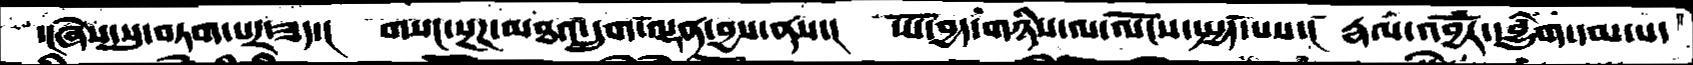་།ཞེས་སུ་བཏག་པར་ཟད་།  གསང་སྔཌ་མཐའ་དྲུག་ལྡན་བྱས་ནས་།  ཡོ་བྱད་གཉིས་ལ་ལོངས་སྤྱོད་་པས་།  རྣལ་འབྱོར་དབྱུཾག་དམ་པ་
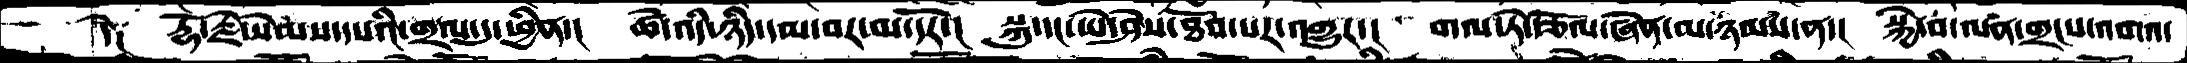དེ༑  རྡོ་རྗེ་སེམས་དཔའི་གྲལ་དུ་ཕྱིན་།  ཚེ་འདི་ཉིད་དམ་བར་མ་དོར་།  སྐུ་དང་ཡེ་ཤེས་ཐོབ་པར་འགྱུར་།  གལ་ཏེ་རྩོལ་ཞེན་མ་ཉམས་ན་།  སྐྱེ་བ་ལན་གྲངས་འགའ་
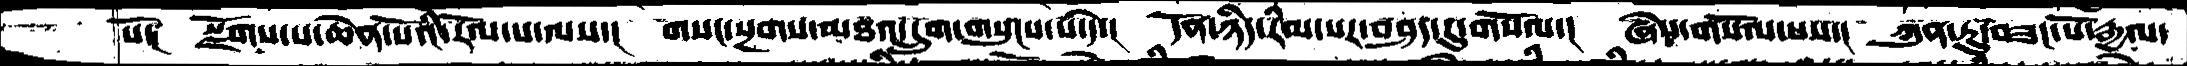སོ༑  སྫོགས་པ་ཆེན་པོའི་རོལ་པ་ལས་།  གསང་སྔགས་མཐའ་དྲུག་གསུངས་པ་དེ་།  དོན་ཉིད་རིམ་པར་བཤད་དུ་གསོལ་།  ཞེས་གསོལ་པས་།  ཀུ་ཏུ་བཟང་པོ་རྒྱལ་
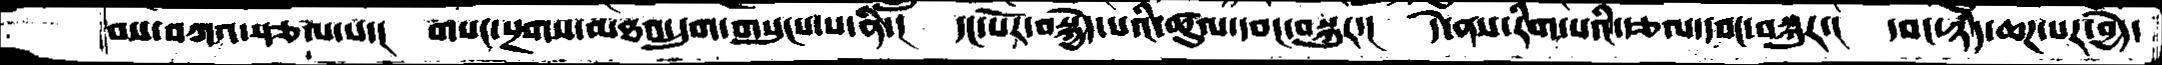བས་བཀའ་སྩལ་པ་།  གསང་སྔགས་མཐའ་དྲུག་གསུངས་པ་ནི་།  དང་པོར་བསྐྱེད་པའི་ཚུལ་དབང་བསྐུར་།  དེ་ནས་རིག་པའི་རྩལ་དབང་བསྐུར་།  དབང་ཉིད་ཆཌ་པར་བྱེད་
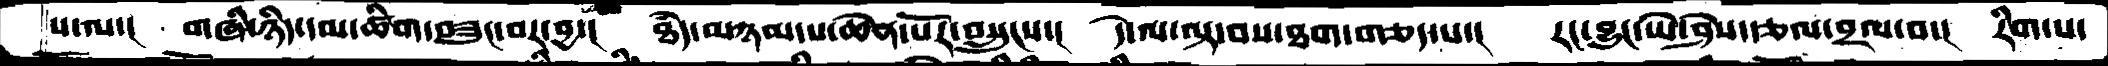པ་ལ་།  གཞི་ཉིད་དམ་ཚིག་བཟུང་བར་བྱ་།  ཐཾད་མཉམ་པ་ཆེན་པོར་བསྲུངས་།  དེ་ལ་ལྟ་བས་ཐག་གཅད་པ་།  རང་བྱུང་ཡེ་ཤེས་རྩལ་བྲལ་བ་།  རིག་པ་
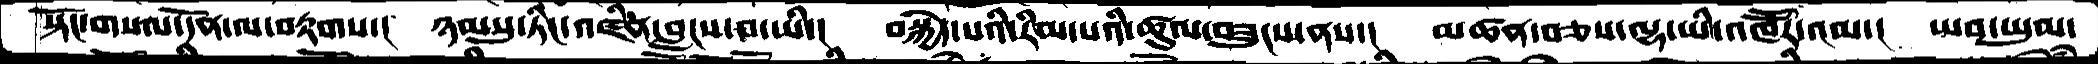སྟོང་གསལ་དོན་ལ་བརྟགས་།  ཉམསུ་ཏིང་འཛིན་བླངས་བ་ཡི་།  བསྐྱེད་པའི་རིམ་པའི་ཚུལ་བཟུངས་ནས་།  མཚན་བཅས་ལྷ་ཡི་འཁཽར་འམ་།  ཡབ་ཡུམ་
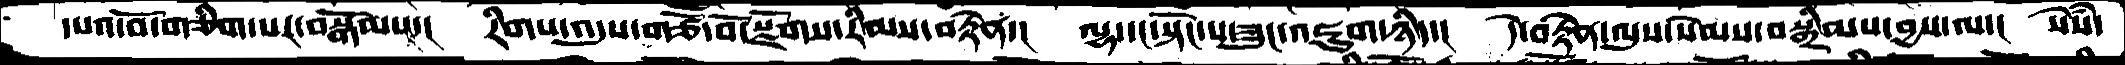དཔའ་བོ་གཅིག་པར་བསྒོམས་།  རིགས་འདུས་གཙོ་བོ་སྫོགས་རིམས་བརྟེན་།  ལྷ་དང་སྟོང་པ་ཟུང་འཇུག་ཉིད་།   དེ་བརྟེན་ལུས་སེམས་བསྒྲིམས་བྱས་ལ་།  སེཾས་
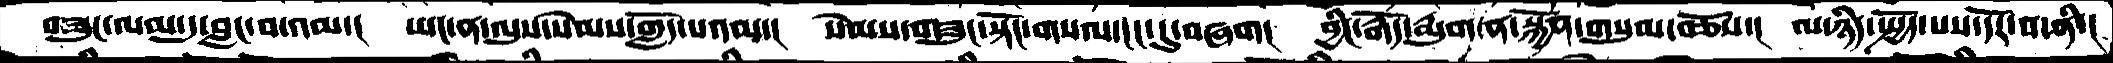བཟུང་ལམ་དུ་བླང་བ་འམ་།  ཡང་ན་ལུས་སེམས་གློད་པའམ་།  སེམས་གཟུང་སྟོང་གསལ་ངང་དུ་བཞག།  བྱིང་རྒོད་རྨུག་ན་སྐྱོན་གསུམ་བཅོས་།  ལ་ཉིད་སྤྱོད་པས་དོར་བ་ནི་།
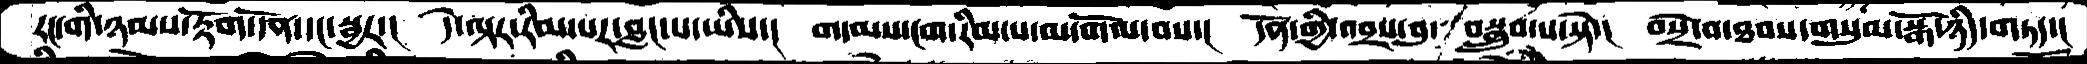རང་གི་ཉམས་རྟོག་དོན་དང་སྦྱར་།  དེ་ལྟར་རིམ་པར་བླང་པ་ཡིས་།  གདམས་ངག་རིམ་པ་མ་གོལ་བས་།  དོན་གྱི་འབྲས་བུ་བསྒྲུབ་པ་སྟེ་།  བསྲེ་བ་ཐབས་གསུམ་སྒོ་ཉིད་གཏད་།
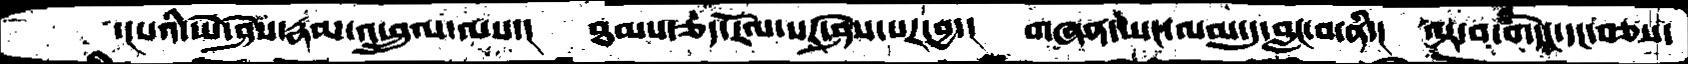་།པའི་ཡེ་ཤེས་རྣམ་འཕྲུལ་ལས་།  ཐམས་ཅད་རོལ་པར་ཤེས་པར་བྱ་།  གཞན་ཡང་ལམ་དུ་བླང་བ་ནི་།  ལྟ་བ་གདེང་དང་བཅས་
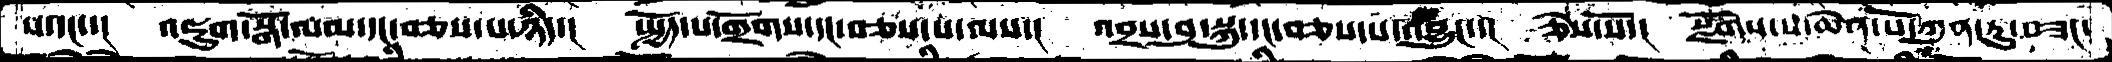པ་དང་་།  འཇུག་སྒོ་ལམ་དང་བཅས་པ་ཉིད་།  སྤྱོད་པ་གྲོགས་དང་བཅས་པ་ལས་།  འབྲས་བུ་སྐུ་དང་བཅས་པ་འབྱུང་་།  ཅེས་སོ་།  སྫོགས་པ་ཆེན་པོ་ཀུན་ཏུ་བཟང་
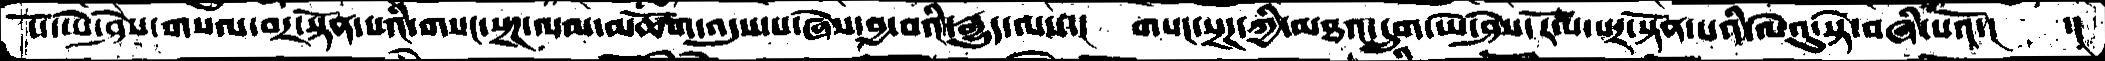པོ་ཡེ་ཤེས་གསལ་བར་སྟོན་པའི་གསང་སྔཌ་ལམ་མཆོག་འདུས་པ་ཞེས་བྱ་བའི་རྒྱུད་ལས་།  གསང་སྔཌ་ཀྱི་མཐའ་དྲུག་ཡེ་ཤེས་རོལ་པར་སྟོན་པའི་ལེའུ་སྟེ་བཞི་པའོ་།   ་།
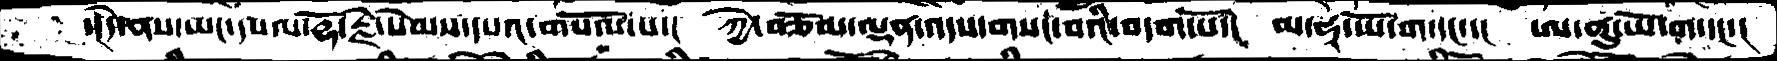་།དེ་ནས་ཡང་དཔལ་རྡོ་རྗེ་སེམས་དཔའ་གསོལ་པ་།  ཀྱེ་བཅོམ་ལྡན་འདས་གསང་བའི་བདག་པོ་།  མ་ཧཱ་ཡོ་ག་དང་་།  ཨ་ནུ་ཡོ་ག་དང་།
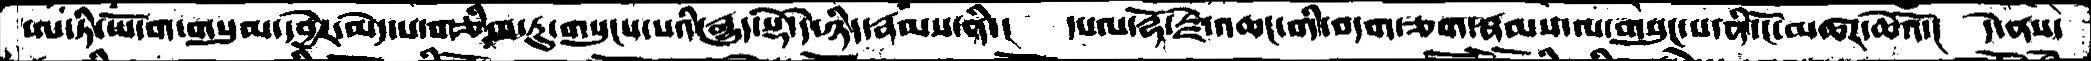ཨ་ཏི་ཡོ་ག་གསུམ་དབྱེར་མེད་པ་གཅིག་ཏུ་གསུངས་པའི་རྒྱུད་སྡེ་དེ་ཉིད་རྣམས་ནི་།  དཔལ་རྡོ་རྗེ་འཆང་གི་བདག་ཅག་རྣམས་ལ་གསུང་པ་ནི་ངོ་མཚར་ཆེའོ་།   དེ་ནས་
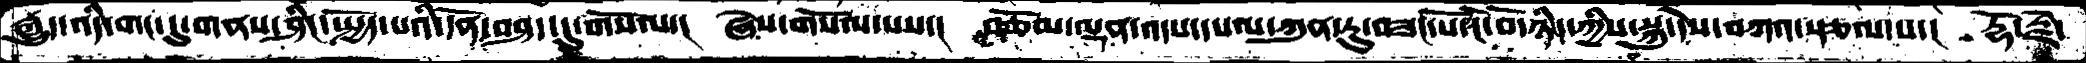རྒྱུད་འདི་གང་དུ་གནས་ཤིང་སྤྱོད་པའི་དོན་བཤད་དུ་གསོལ་།  ཞེས་གསོལ་པས་།  བཅོམ་ལྡན་འདས་དཔལ་ཀུན་ཏུ་བཟང་པོ་ངོ་བོ་ཉིད་ཀྱིས་སྐུ་དེས་བཀའ་སྩལ་པ་།  རྡོ་རྗེ་
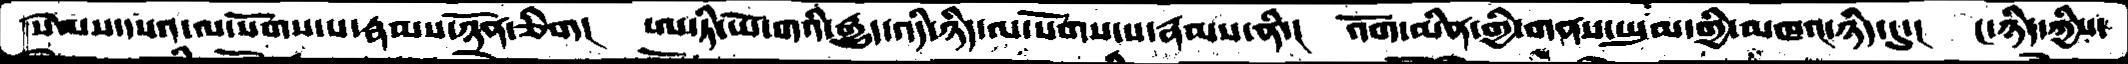སེམས་དཔའ་ལ་སོགས་པ་རྣམས་ཉོན་ཅིག།  ཨ་ཏི་ཡོ་གའི་རྒྱུད་འདི་ཉིད་ལ་སོགས་པ་རྣམས་ནི་།  འོག་མིན་གྱི་གནས་ཡུམ་གྱི་མཁའ་ཉིད་དུ་།  ང་ཉིད་ཀྱིས་
